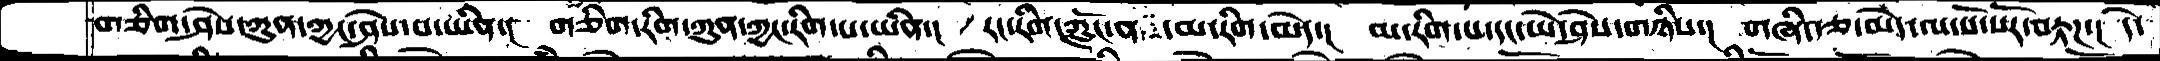གཅིག་ཤེས་ཀུན་ཀྱང་ཤེས་པ་ཡིན་།  གཅིག་རིག་ཀུན་ཀྱང་རིག་པ་ཡིན་།  རང་རིག་ཀློང་ན་མ་རིག་མེད་།  མ་རིག་པ་དང་ཡེ་ཤེས་གཉིས་།  གཞི་རྩ་མེད་པ་སོ་སོར་བརྟཌ་།  དེ་
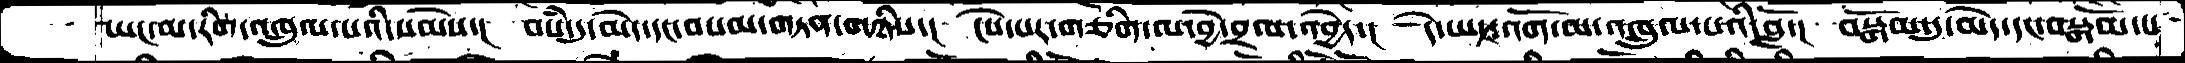ཡང་མ་རིག་འཁྲུལ་པའི་སེམས་།  བསཾ་དུ་མེད་དང་བསམ་གཏན་གཉིས་།  ངེས་པར་གཅིག་ལ་བྱེ་བྲལ་འབྱེད་།  དེ་ཡང་འགོ་མ་འཁྲུལ་པའི་བློ་།  བསྒོམ་དུ་མེད་དང་བསྒོམ་པ་
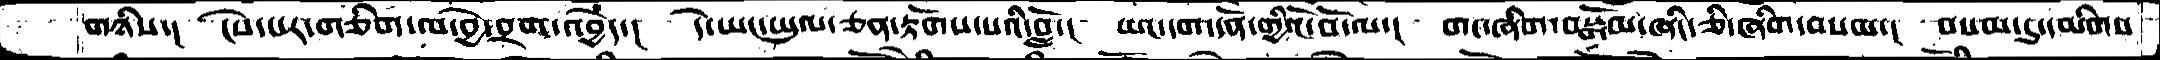གཉིས་།  ངེས་པར་གཅིག་ལ་བྱེ་བྲག་འབྱེད་།  དེ་ཡང་ཡུལ་ཅན་རྟོགས་པའི་བློ་།  ཡང་དག་དོན་གྱི་ངོ་བོ་ལ་།  གང་ཞིག་བསྒོམ་ཞིང་ཅི་ཞིག་བསམ་།  བསམ་དུ་དམིགས་
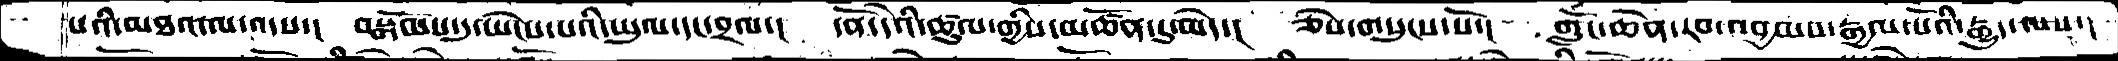པའི་མཐའ་ལ་འདས་།  བསྒོམས་དུ་ཡེངས་པའི་ཡུལ་དང་བྲལ་།  དོན་དེའི་ཚུལ་གྱིས་མཚོན་དུ་མེད་།  ཅེས་གསུངས་སོ་།  གློང་ཆེན་རབ་འབྱམས་རྒྱལ་པོའི་རྒྱུད་ལས་།
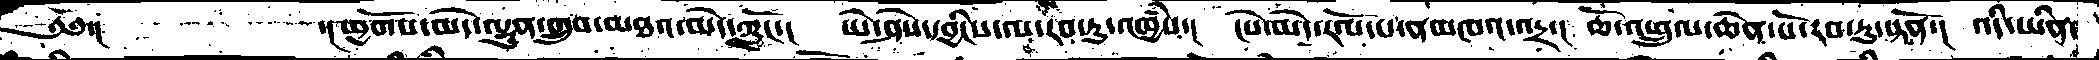༄༅་།         ་།ཕྱོགས་མེད་ལྷུན་གྲུབ་མཐའ་མེད་ཀློང་།   ཡེ་ཤེས་དབྱིངས་ལ་རབ་ཏུ་འཁྱཾས་།  ངེས་མེད་རོལ་པ་ནམཁའ་འདྲ་།  ཆོ་འཕྲུལ་ཆེན་པོ་རབ་ཏུ་སྟནོ་།  འདི་ཡིན་
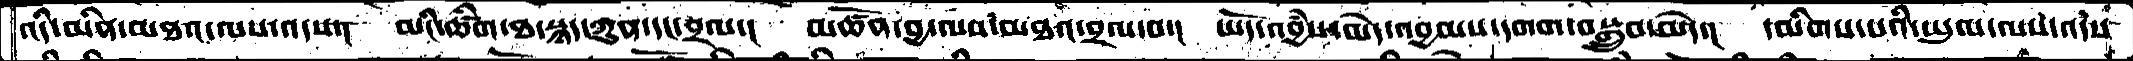འདི་མིན་མཐའ་ལས་འདས་།  མིང་ཚིག་ཐ་སྙད་ཀུན་དང་བྲལ་།  མཚོན་བྱ་ལས་མཐའ་བྲལ་བ་།  ཡོད་འབྱཾས་མེད་འབྱམས་དགག་བསྒྲུབ་མེད་།  དམིགས་པའི་ཡུལ་ལས་འདས་
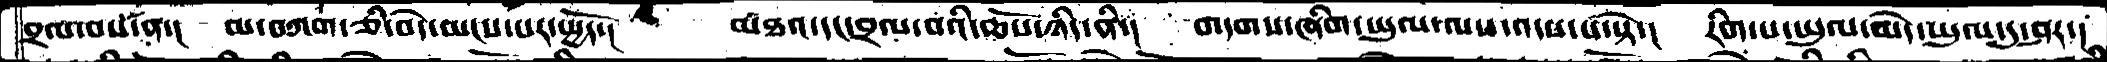བྲལ་བས་ན་།  མ་བཀག་ཅི་བདེ་ཡངས་པར་སྤྱོད་།  མཐའ་དང་བྲལ་བའིི་ཆོས་ཉིད་ནི་།  གདགས་ཞིག་ཡུལ་ལས་འདས་པ་སྟེ་།  རིག་པ་ཡུལ་མེད་ཡུལ་དུ་ཤར་།
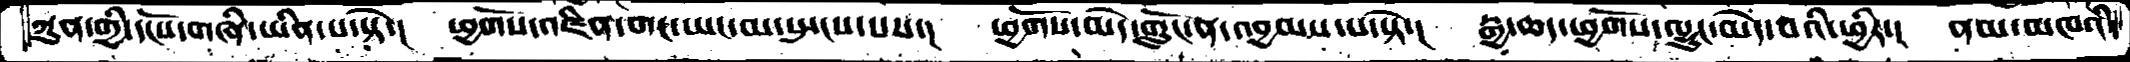ཀུན་གྱི་དངོས་གཞི་ཡིན་པ་སྟེ་།  ཕྱོགས་འཛིན་གང་ཡང་མ་སྤངས་པས་།  ཕྱོགས་མེད་གློང་ན་འབྱམས་པ་སྟེ་།  རྒྱ་ཆད་ཕྱོགས་ལྷུང་མེད་པའི་ཕྱིར་།  ནམ་མཁའི་
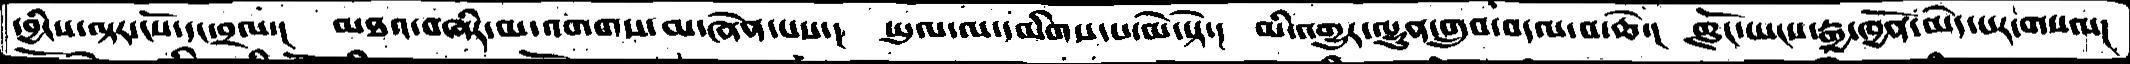དབྱིངས་ལྟར་ངོས་དང་བྲལ་།   མཐའ་བཞིར་མ་འགགས་མ་ཞེན་པས་།  ཡུལ་ལ་དམིགས་པ་མེ་སྟེ་།  མི་འགྱུར་ལྷུན་གྲུབ་བདལ་བ་ཆེ་།  ཀློང་ཡངས་རྒྱ་ཁྱོན་མེད་པར་གསལ།
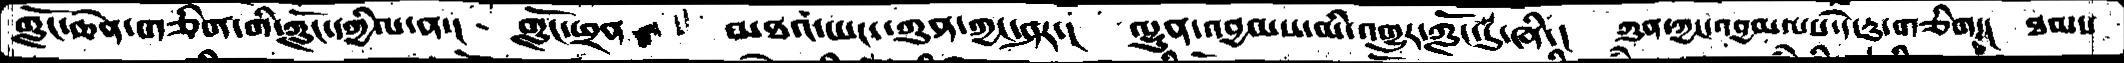ཀློང་ཆེན་གཅིག་གི་ཀློང་དཀྱིལ་ན་། གློང་ཕྲན་   མཐའ་ཡང་ཀུན་ཀྱང་ཤར་། ལྷུན་འབྱམས་མི་འགྱུར་ཀློང་དུ་ཞི་། ཀུན་ཀྱང་འབྱམ་པས་དེ་རུ་གཅིག་། ཐམས
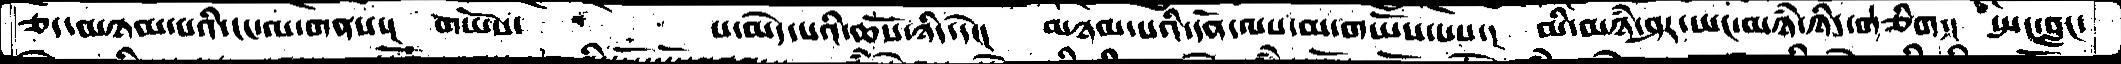ཅད་མཉམ་པའི་ངང་ལ་གནས་།  གཡོས་     པ་མེད་པའི་ཆོས་ཉིད་དེ་།   མཉམ་པའི་དོན་ལས་མ་གཡོས་པས་།  མི་མཉཾ་ཤར་ཡང་མཉཾ་ཉིད་གཅིག་།  སྤང་བླང་
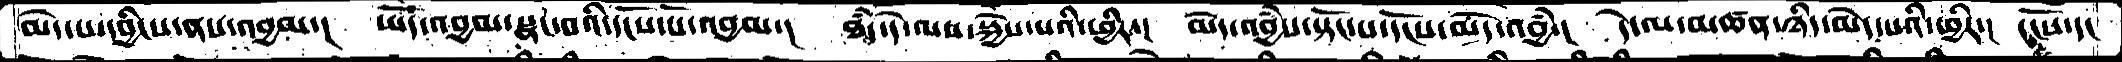མེད་པ་དབྱིངས་ནས་འབྱམ་།  ཡོད་འབྱམ་སྣང་བའི་དངོས་པོ་འབྱམ་།  ཐཾད་དེ་ལས་སྐྱེས་པའི་ཕྱིར་།  མེད་འབྱཾས་སྟོང་པ་དངོས་མེད་འབྱཾ་།  དེ་ལ་མཚན་ཉིད་མེད་པའི་ཕྱིར་།  དངོས་དང
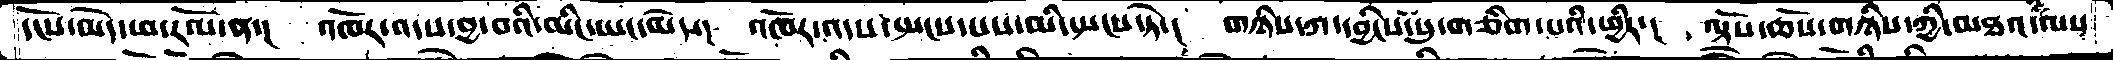དངོས་མེད་ཕ་རོལ་ན་།  འཁོར་འདས་བྱ་བའི་མིང་ཡང་མེད་།  འཁོར་འདས་སྤངས་པས་མི་སྤངས་ཏེ་།  གཉིས་ཀ་དབྱིངས་སུ་གཅིག་པའི་ཕྱིར་།  ལྟོས་ཆོས་གཉིས་ཀྱི་མཐའ་ལས་
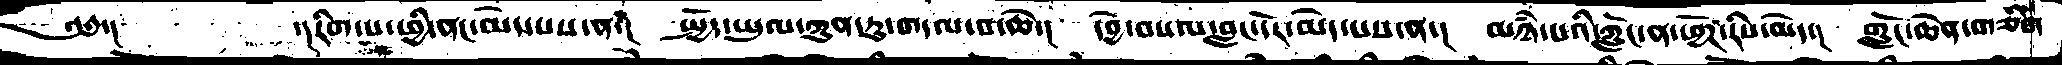༄༅་།       ་།རིག་པ་ཕྱི་ནང་མེད་པས་ན་།  སྤྱོད་ཡུལ་ཀུན་ཏུ་གདལ་བ་ཆེ་།  དབྱེ་བསལ་བླང་དོར་མེད་པས་ན་།  མཉཾ་པའི་ཀློང་ན་ཕྱོཌ་རིས་མེད་།  གློང་ཆེན་གཅིག
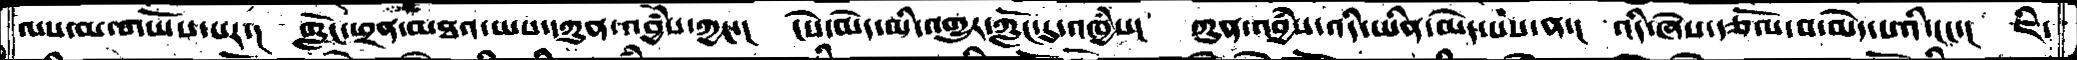ལས་མ་གཡོས་པར་།  གླེང་ཕྲན་མཐའ་ཡས་དཀུན་འབྱཾས་ཀྱང་།  ངེས་མེད་མི་འགྱུར་ཀློང་དུ་འཁྱཾས་།  ཀུན་འབྱཾས་འདི་ཡིན་མེད་པས་ན་།  འདི་ཞེས་རྩོལ་བ་མེད་པའི་ངང་།  ཇི་
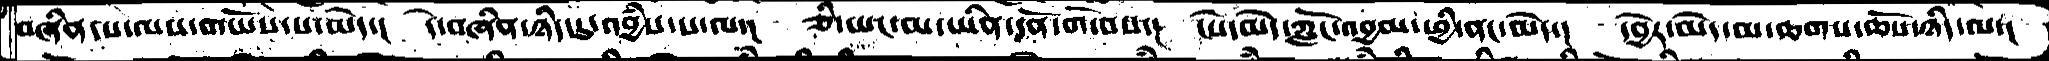བཞིན་པ་ལས་གཡོས་ས་མེད་།  དེ་བཞིན་ཉིད་དུ་འབྱཾས་པ་ལ་།  ཅི་ཡང་མ་ཡིན་དོན་གོ་བས་།  ཡོད་མེད་ཀློང་འབྱམ་ཕྱི་ནང་མེད་།  དབྱེར་མེད་མ་ཆགས་ཆོས་ཉིད་ལ་།
